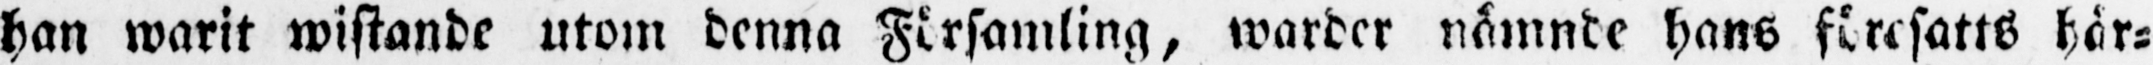han warit mistande utom denna Församling, warder nämnde hans föresatts här-
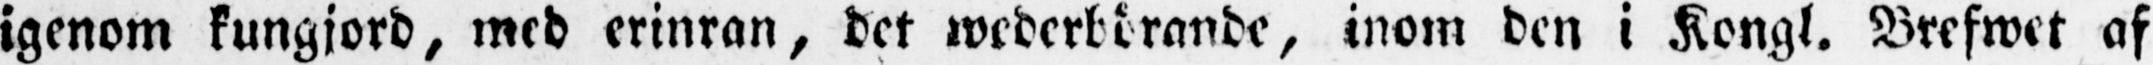igenom kungjord, med erinran, det wederbörande, inom den i Kongl. Brefwet af
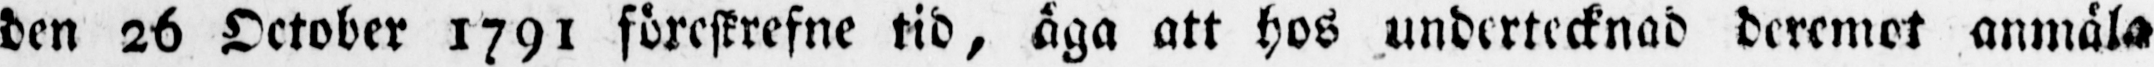den 26 October 1791 föreskrefne tid, äga att hos undertecknad deremot anmäla
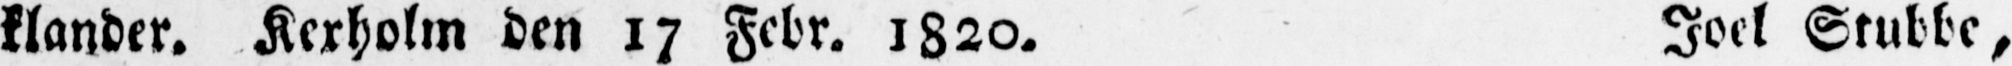klander. Kerholm den 17 Febr. 1820. Joel Stubbe,
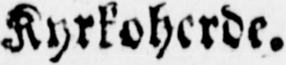Kyrkoherde.
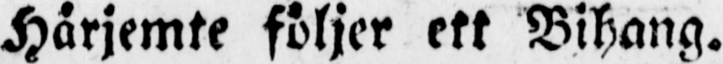Härjemte följer ett Bihang.
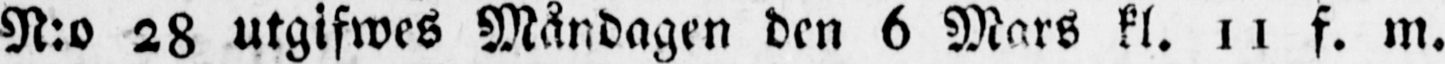N:o 28 utgifwes Måndagen den 6 Mars kl. 11 f. m.
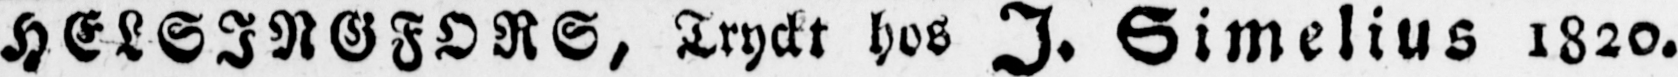HELSINGFORS, Tryckt hos I. Simelius 1820.
